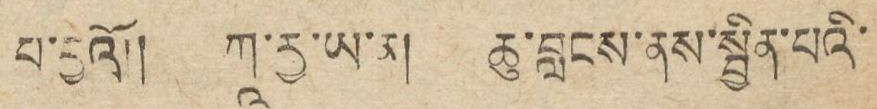པ་བྱའོ། ཀ་རྱ་ཡ་ན། ཆུ་བླངས་ནས་སྦྱིན་པའི་
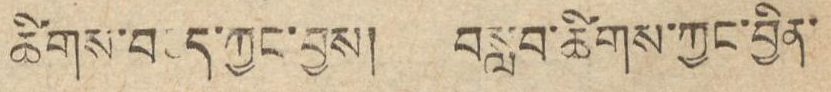ཚིགས་བཅད་ཀྱང་བྱས། བསླབ་ཚིགས་ཀྱང་བྱིན་
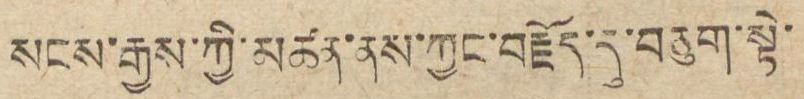སངས་རྒྱས་ཀྱི་མཚན་ནས་ཀྱང་བརྗོད་དུ་བཅུག་སྟེ་
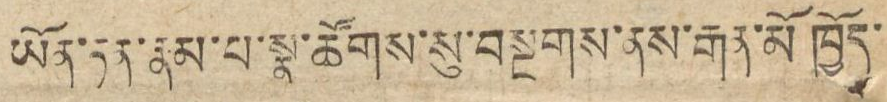ཡོན་ཏན་རྣམ་པ་སྣ་ཚོགས་སུ་བསྔགས་ནས་རྒན་མོ་ཁྱོད་
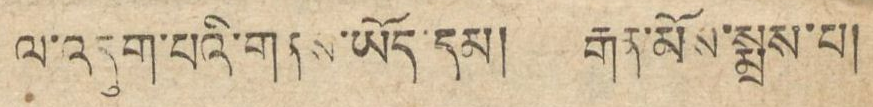ལ་འདུག་པའི་གནས་ཡོད་དམ། རྒན་མོས་སྨྲས་པ།
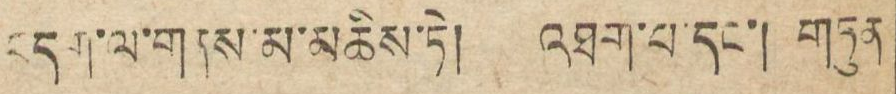བདག་ལ་གནས་མ་མཆིས་ཏེ། འཐག་པ་དང་། གཏུན
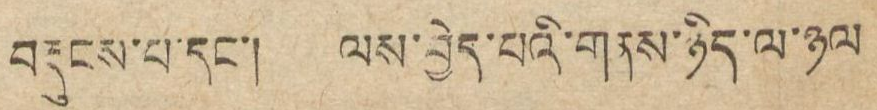བརྡུངས་པ་དང་། ལས་བྱེད་པའི་གནས་ཉིད་ལ་ཉལ་
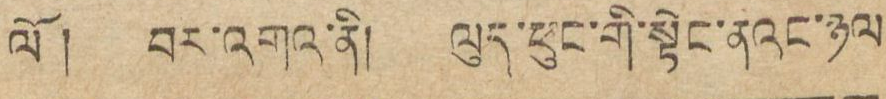ལོ།  བར་འགའ་ནི། ལུད་ཕུང་གི་སྟེང་ནའང་ཉལ་
